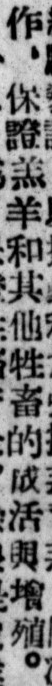作，保證羔羊和其他牲畜的成活與增殖。
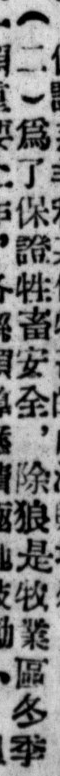（二）爲了保證牲畜安全，除狼是牧業區多季
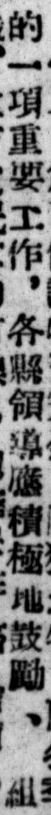的一項重要工作，各縣領導應積極地鼓勵、 組
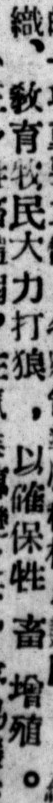織、敎育牧民大力打狼 ，以確保牲 畜 增殖。
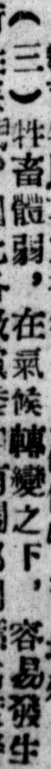（三）牲畜體弱，在氣候轉變之下，容易發生
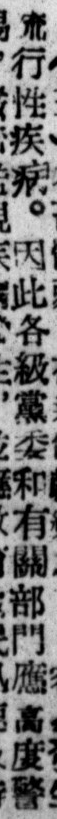流行性疾病。因此各級黨委和有關部門應高度警
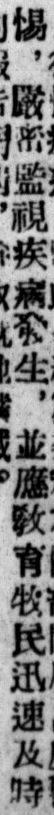惕，嚴密監視疾病發生，並應敎育牧民迅速及時
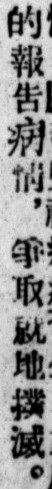的報告病情，爭取就地撲滅。
